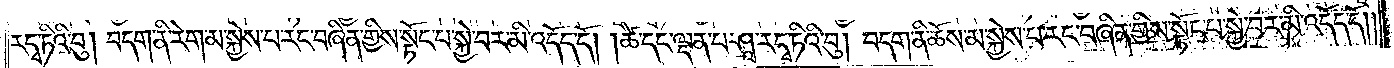ཏིའི་བུ། བདག་ནི་རེག་མ་སྐྱེས་པ་རང་བཞིན་གྱིས་སྟོང་པ་སྐྱེ་བར་མི་འདོད་དོ། །ཚེ་དང་ལྡན་པ་ཤཱ་ར་དྭ་ཏིའི་བུ། བདག་ནི་ཆོས་མ་སྐྱེས་པ་རང་བཞིན་གྱིས་སྟོང་པ་སྐྱེ་བར་མི་འདོད་དོ།
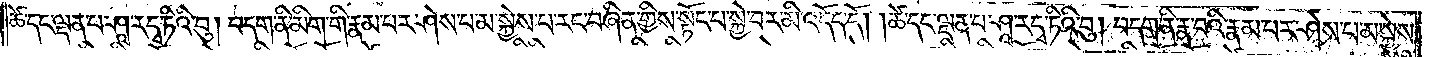ཚེ་དང་ལྡན་པ་ཤཱ་ར་དྭ་ཏིའི་བུ། བདག་ནི་མིག་གི་རྣམ་པར་ཤེས་པ་མ་སྐྱེས་པ་རང་བཞིན་གྱིས་སྟོང་པ་སྐྱེ་བར་མི་འདོད་དོ། །ཚེ་དང་ལྡན་པ་ཤཱ་ར་དྭ་ཏིའི་བུ། བདག་ནི་རྣ་བའི་རྣམ་པར་ཤེས་པ་མ་སྐྱེས་
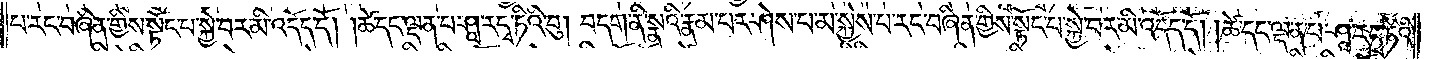པ་རང་བཞིན་གྱིས་སྟོང་པ་སྐྱེ་བར་མི་འདོད་དོ། །ཚེ་དང་ལྡན་པ་ཤཱ་ར་དྭ་ཏིའི་བུ། བདག་ནི་སྣའི་རྣམ་པར་ཤེས་པ་མ་སྐྱེས་པ་རང་བཞིན་གྱིས་སྟོང་པ་སྐྱེ་བར་མི་འདོད་དོ། །ཚེ་དང་ལྡན་པ་ཤཱ་ར་དྭ་ཏིའི་
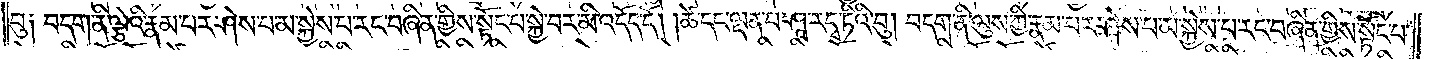བུ༏ བདག་ནི་ལྕེའི་རྣམ་པར་ཤེས་པ་མ་སྐྱེས་པ་རང་བཞིན་གྱིས་སྟོང་པ་སྐྱེ་བར་མི་འདོད་དོ། །ཚེ་དང་ལྡན་པ་ཤཱ་ར་དྭ་ཏིའི་བུ། བདག་ནི་ལུས་ཀྱི་རྣམ་པར་ཤེས་པ་མ་སྐྱེས་པ་རང་བཞིན་གྱིས་སྟོང་པ་
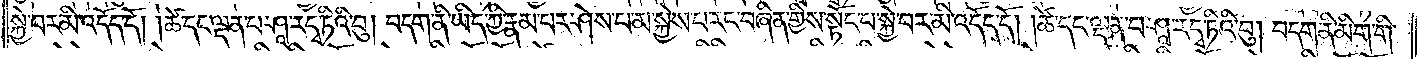སྐྱེ་བར་མི་འདོད་དོ། །ཚེ་དང་ལྡན་པ་ཤཱ་ར་དྭ་ཏིའི་བུ། བདག་ནི་ཡིད་ཀྱི་རྣམ་པར་ཤེས་པ་མ་སྐྱེས་པ་རང་བཞིན་གྱིས་སྟོང་པ་སྐྱེ་བར་མི་འདོད་དོ། །ཚེ་དང་ལྡན་པ་ཤཱ་ར་དྭ་ཏིའི་བུ། བདག་ནི་མིག་གི་
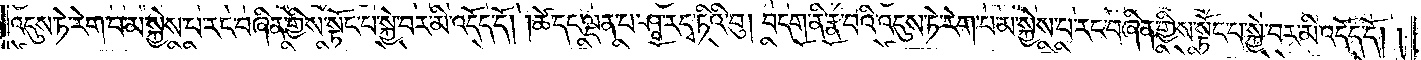འདུས་ཏེ་རེག་པ་མ་སྐྱེས་པ་རང་བཞིན་གྱིས་སྟོང་པ་སྐྱེ་བར་མི་འདོད་དོ། །ཚེ་དང་ལྡན་པ་ཤཱ་ར་དྭ་ཏིའི་བུ། བདག་ནི་རྣ་བའི་འདུས་ཏེ་རེག་པ་མ་སྐྱེས་པ་རང་བཞིན་གྱིས་སྟོང་པ་སྐྱེ་བར་མི་འདོད་དོ། །
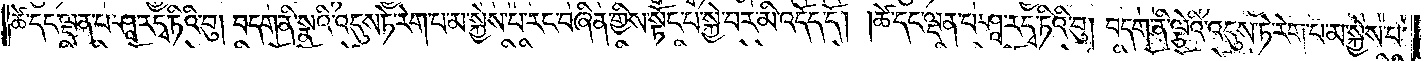ཚེ་དང་ལྡན་པ་ཤཱ་ར་དྭ་ཏིའི་བུ། བདག་ནི་སྣའི་འདུས་ཏེ་རེག་པ་མ་སྐྱེས་པ་རང་བཞིན་གྱིས་སྟོང་པ་སྐྱེ་བར་མི་འདོད་དོ། །ཚེ་དང་ལྡན་པ་ཤཱ་ར་དྭ་ཏིའི་བུ། བདག་ནི་ལྕེའི་འདུས་ཏེ་རེག་པ་མ་སྐྱེས་པ་
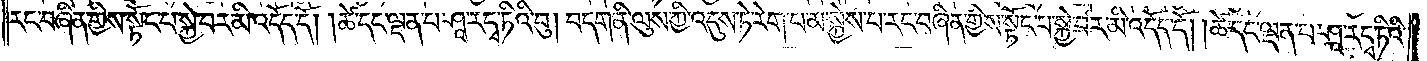རང་བཞིན་གྱིས་སྟོང་པ་སྐྱེ་བར་མི་འདོད་དོ། །ཚེ་དང་ལྡན་པ་ཤཱ་ར་དྭ་ཏིའི་བུ། བདག་ནི་ལུས་ཀྱི་འདུས་ཏེ་རེག་པ་མ་སྐྱེས་པ་རང་བཞིན་གྱིས་སྟོང་པ་སྐྱེ་བར་མི་འདོད་དོ། །ཚེ་དང་ལྡན་པ་ཤཱ་ར་དྭ་ཏིའི་
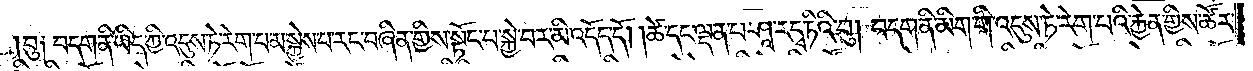བུ༏ བདག་ནི་ཡིད་ཀྱི་འདུས་ཏེ་རེག་པ་མ་སྐྱེས་པ་རང་བཞིན་གྱིས་སྟོང་པ་སྐྱེ་བར་མི་འདོད་དོ། །ཚེ་དང་ལྡན་པ་ཤཱ་ར་དྭ་ཏིའི་བུ། བདག་ནི་མིག་གི་འདུས་ཏེ་རེག་པའི་རྐྱེན་གྱིས་ཚོར་
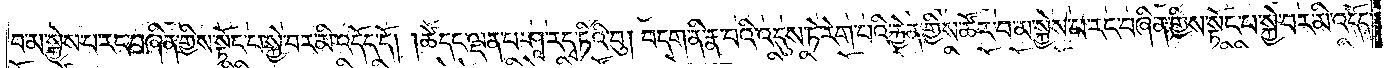བ་མ་སྐྱེས་པ་རང་བཞིན་གྱིས་སྟོང་པ་སྐྱེ་བར་མི་འདོད་དོ། །ཚེ་དང་ལྡན་པ་ཤཱ་ར་དྭ་ཏིའི་བུ། བདག་ནི་རྣ་བའི་འདུས་ཏེ་རེག་པའི་རྐྱེན་གྱིས་ཚོར་བ་མ་སྐྱེས་པ་རང་བཞིན་གྱིས་སྟོང་པ་སྐྱེ་བར་མི་འདོད་
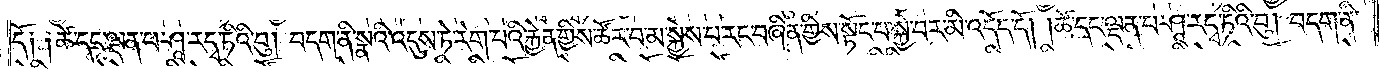དོ༏ ༏ཚེ་དང་ལྡན་པ་ཤཱ་ར་དྭ་ཏིའི་བུ། བདག་ནི་སྣའི་འདུས་ཏེ་རེག་པའི་རྐྱེན་གྱིས་ཚོར་བ་མ་སྐྱེས་པ་རང་བཞིན་གྱིས་སྟོང་པ་སྐྱེ་བར་མི་འདོད་དོ། །ཚེ་དང་ལྡན་པ་ཤཱ་ར་དྭ་ཏིའི་བུ། བདག་ནི་
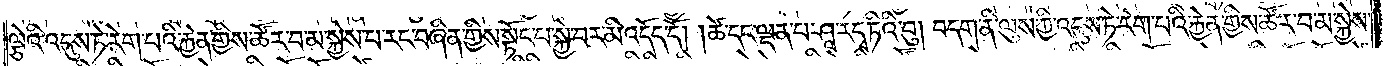ལྕེའི་འདུས་ཏེ་རེག་པའི་རྐྱེན་གྱིས་ཚོར་བ་མ་སྐྱེས་པ་རང་བཞིན་གྱིས་སྟོང་པ་སྐྱེ་བར་མི་འདོད་དོ། །ཚེ་དང་ལྡན་པ་ཤཱ་ར་དྭ་ཏིའི་བུ། བདག་ནི་ལུས་ཀྱི་འདུས་ཏེ་རེག་པའི་རྐྱེན་གྱིས་ཚོར་བ་མ་སྐྱེས་
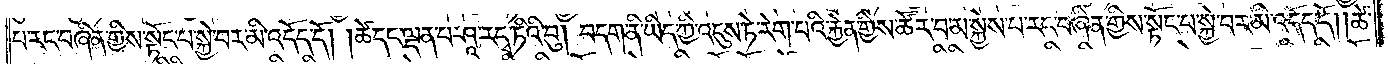པ་རང་བཞིན་གྱིས་སྟོང་པ་སྐྱེ་བར་མི་འདོད་དོ། །ཚེ་དང་ལྡན་པ་ཤཱ་ར་དྭ་ཏིའི་བུ། བདག་ནི་ཡིད་ཀྱི་འདུས་ཏེ་རེག་པའི་རྐྱེན་གྱིས་ཚོར་བ་མ་སྐྱེས་པ་རང་བཞིན་གྱིས་སྟོང་པ་སྐྱེ་བར་མི་འདོད་དོ། །ཚེ་
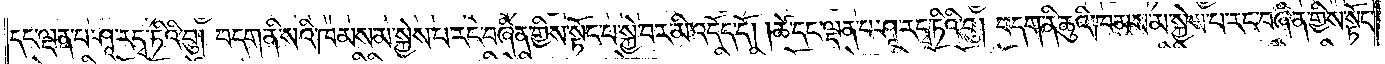དང་ལྡན་པ་ཤཱ་ར་དྭ་ཏིའི་བུ། བདག་ནི་སའི་ཁམས་མ་སྐྱེས་པ་རང་བཞིན་གྱིས་སྟོང་པ་སྐྱེ་བར་མི་འདོད་དོ། །ཚེ་དང་ལྡན་པ་ཤཱ་ར་དྭ་ཏིའི་བུ། བདག་ནི་ཆུའི་ཁམས་མ་སྐྱེས་པ་རང་བཞིན་གྱིས་སྟོང་
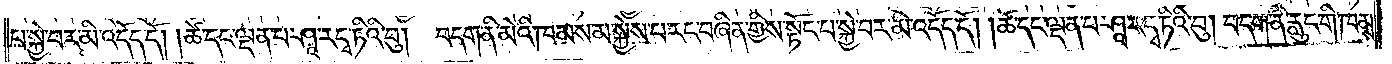པ་སྐྱེ་བར་མི་འདོད་དོ། །ཚེ་དང་ལྡན་པ་ཤཱ་ར་དྭ་ཏིའི་བུ། བདག་ནི་མེའི་ཁམས་མ་སྐྱེས་པ་རང་བཞིན་གྱིས་སྟོང་པ་སྐྱེ་བར་མི་འདོད་དོ། །ཚེ་དང་ལྡན་པ་ཤཱ་ར་དྭ་ཏིའི་བུ། བདག་ནི་རླུང་གི་ཁམས་
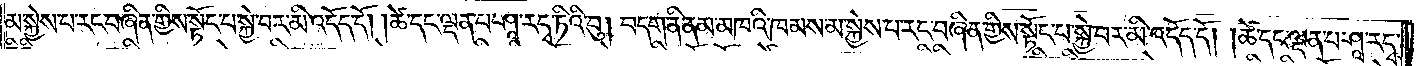མ་སྐྱེས་པ་རང་བཞིན་གྱིས་སྟོང་པ་སྐྱེ་བར་མི་འདོད་དོ། །ཚེ་དང་ལྡན་པ་ཤཱ་ར་དྭ་ཏིའི་བུ། བདག་ནི་ནམ་མཁའི་ཁམས་མ་སྐྱེས་པ་རང་བཞིན་གྱིས་སྟོང་པ་སྐྱེ་བར་མི་འདོད་དོ། །ཚེ་དང་ལྡན་པ་ཤཱ་ར་དྭ་
